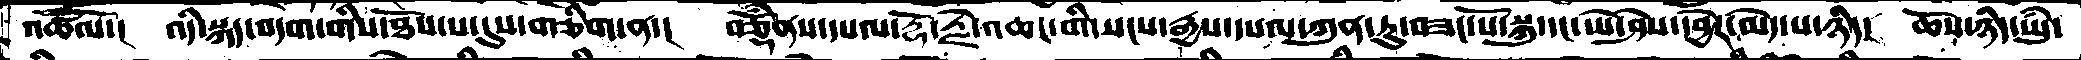འཚལོ་།  འདི་སྐད་བདག་གིས་ཐོས་པ་དུས་གཅིག་ན་།   བཅྡོཾནས་དཔལ་རྡོ་རྗེ་འཆང་གི་སངས་རྒྱས་དཔལ་ཀུན་ཏུ་བཟང་པོ་སྐུ་དང་ཡེ་ཤེས་དབྱེར་མེད་པ་ཉིད་།   ཆོས་ཉིད་ཡུཾ་
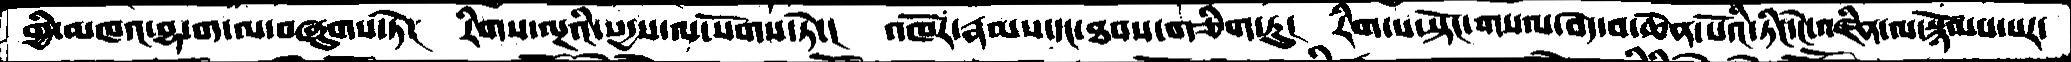གྱི་མཁའ་བྷ་ག་ལ་བཞུགས་ཏེ།  རིགས་ལྔའི་སདྱས་ལ་སོགས་ཏེ་།  འཁོར་རྣམས་དང་ཐབས་གཅིག་ཏུ།  རིག་པ་སྟོང་གསལ་བདེ་བ་ཆེན་པོའི་ཏིང་ངེ་འཛིན་ལ་སྙོམས་པར་
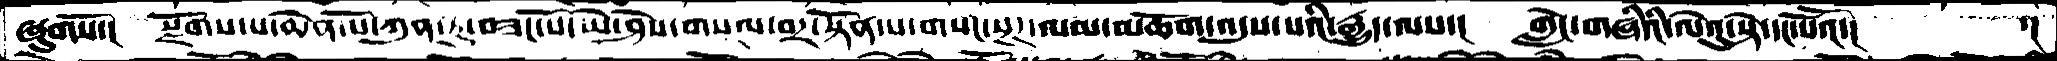ཞུགས་སོ་།  སྫོགས་པ་ཆེན་པོ་ཀུན་ཏུ་བཟང་པོ་ཡེ་ཤེས་གསལ་བར་སྟོན་པ་གསང་སྔཌ་ལམ་མཆོག་འདུས་པའི་རྒྱུད་ལས་།  གླེང་བཞིའི་ལེའུ་སྟེ་དང་པོའོ་།        ་།
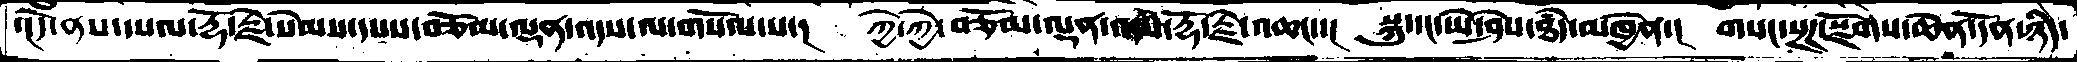་།དེ་ནས་དཔལ་རྡོ་རྗེ་སེམས་དཔས་བཅོམ་ལྡན་འདས་ལ་གསོལ་པ་།  ཀྱེ་ཀྱེ་བཅོམ་ལྡན་འདས་རྡོ་རྗེ་འཆང་་།  སྐུ་དང་ཡེ་ཤེས་ཐཾད་མཁྱེན་།  གསང་སྔཌ་སྫོགས་ཆེན་དོན་ཉིད་
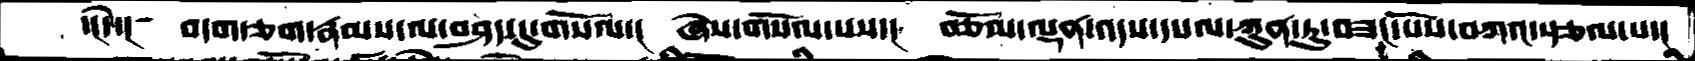་།དེ་།  བདག་ཅག་རྣམས་ལ་བཤད་དུ་གསོལ་།  ཞེས་གསོལ་པས་།  བཅོམ་ལྡན་འདས་དཔལ་ཀུན་ཏུ་བཟང་པོས་བཀའ་སྩལ་པ་།
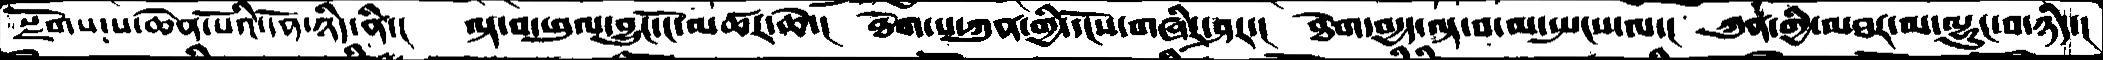སྫོགས་པ་ཆེན་པོའི་དོན་ཉིད་ནི་།  ལྟ་བ་ཕུལ་བྱུང་ངོ་མཚར་ཆེ་།  ཐེག་པ་ཀུན་གྱི་དངོས་གཞིར་ཤར་།  ཐེག་བདྱད་ལྟ་བ་མ་སྤངས་ལ་།  ཀུན་གྱི་མཐར་མ་ལྷུང་བ་ཉིད་།
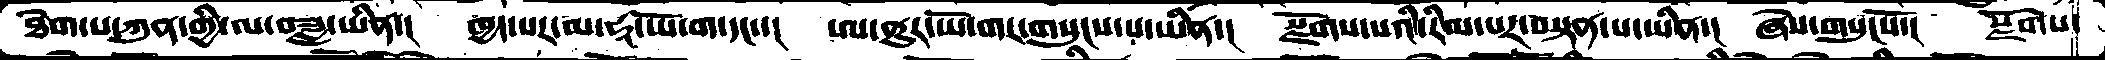ཐེག་པ་ཀུན་གྱི་ལ་བཟླ་་ཡིན་།  ཁྱད་པར་མ་ཧཱ་་ཡོ་ག་དང་་།  ཨ་ནུར་ཡོ་གར་གསུངས་པ་ཡིན་།  སྫོགས་པའི་རིམ་པར་བསྟན་པ་ཡིན་།  ཞེས་གསུངསོ་།  སྫོགས་
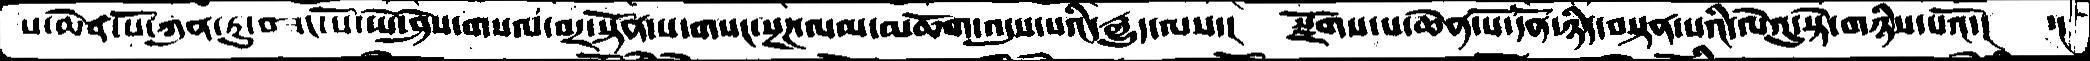ས་ཆེན་པོ་ཀུན་ཏུ་བཟང་པོ་ཡེ་ཤེས་གསལ་བར་སྟོན་པ་གསང་སྔཌ་ལམ་མཆོག་འདུས་པའི་རྒྱུད་ལས་།  སྫོགས་པ་ཆེན་པོ་དོན་ཉིད་བསྟན་པའི་ལེའུ་སྟེ་གཉིས་པའོ་།   ་།
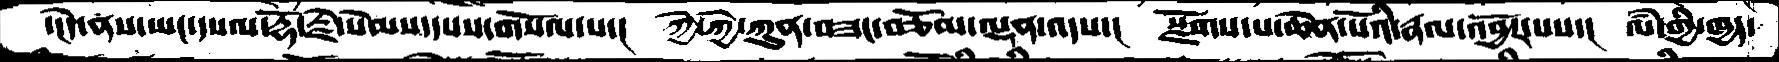་།་དེ་ནས་ཡང་དཔལ་རྡོ་རྗེ་སེམས་དསས་གསོལ་པ་།  ཀྱེ་ཀྱེ་ཀུན་བཟང་བཅོམ་ལྡན་འདས་།  སྫོགས་པ་ཆེན་པོའི་རྣལ་འབྱོར་པས་།  ལཾ་གྱི་ཁྱད་
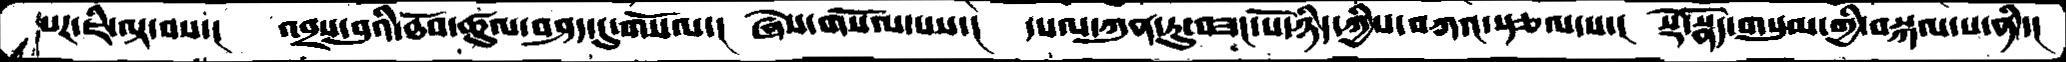པར་ཇི་ལྟ་བས་།  འབྲས་བུའི་ཐོབ་ཚུལ་བཤད་དུ་གསོལ་།  ཞེས་གསོལ་པས་།  དཔལ་ཀུན་ཏུ་བཟང་པོ་ཉིད་ཀྱིས་བཀའ་སྩལ་པ་།  སྡེ་སྣོད་གསུམ་གྱི་བསྐལ་པ་ནི་།
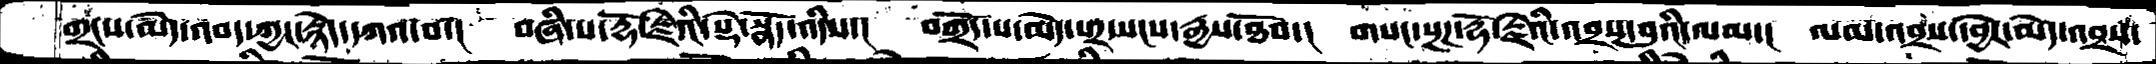གྲངས་མེད་འབད་ཀྱང་རྙེད་དཀའ་བ་།  བཞི་པ་རྡོ་རྗེའི་སྡེ་སྣོད་འདིས་།  བགྲོད་པ་མེད་པར་སངས་རྒྱས་ཐོབ་།  གསང་སྔཌ་རྡོ་རྗེའི་འབྲས་བུའི་ལམ་།  ལམ་འབྲས་དབྱེར་མེད་འབྲས་
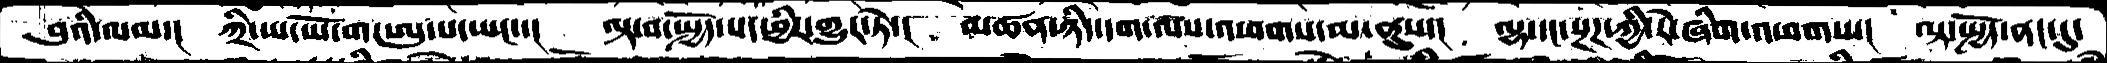བུའི་ལམ་།  ཀྲི་ཡ་ཡོ་ག་ཨུ་པ་ཡང་་།   ལྟ་བ་སྤྱོད་པ་ཕྱིར་གྱུར་ཏེ་།   མཚན་ཉིད་དག་ལས་འཕགས་མ་ནུས་།   ལྷ་དང་སྔཌ་ཀྱི་རེ་ཞིག་འཕགས་།  ལྟ་སྤྱོད་ནང་དུ་
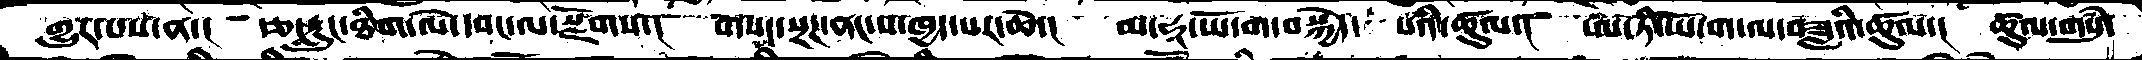གྱུར་པས་ན་།   རྩ་རླུང་ཐིག་ལེ་དབང་ལ་སྫོགས་།   གསང་སྔཌ་ནང་ས་ཁྱད་པར་ཆེ་།   མ་ཧ་ཡོ་ག་བསྐྱེད་  པའི་ཚུལ་།   ཨ་ཏི་ཡོ་ག་ལ་བཟླའི་ཚུལ་།   ཚུལ་གསུཾ་
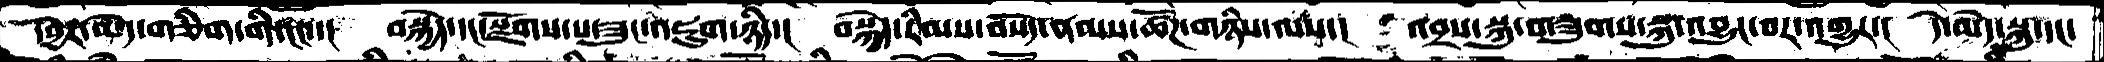དབྱེར་མེད་གཅིག་གི་ངང་་།    བསྐྱེད་དང་སྫོགས་པ་ཟུང་འཇུག་ཉིད་།   བསྐྱེད་རིམས་བསོད་ནམས་ཚོཌ་གཉིས་ལས་།   འབྲས་སྐུ་གཟུགས་སྐུ་འབྱུང་བར་འགྱུར་།  དེ་མེད་སྐུ་དང་
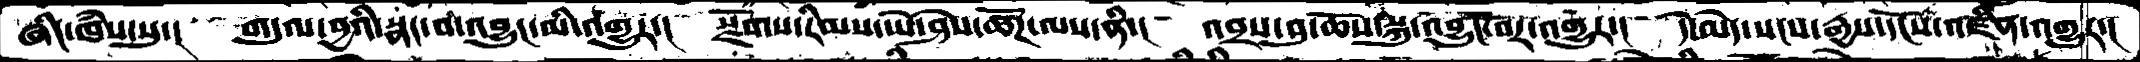ཞིང་ཁཾས་སུ་།   གདུལ་བྱའི་སྣང་བ་འབྱུང་མི་འགྱུར་།   སྫོགས་རིམས་ཡེ་ཤེས་ཚོཌ་ལས་ནི་།   འབྲས་བུ་ཆོས་སྐུ་འབྱུང་བར་འགྱུར་།   དེ་མེད་སངས་རྒྱས་དངོས་འཛིན་འགྱུར་།
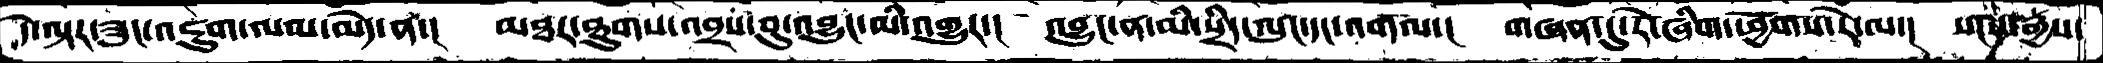དེ་ལྟར་ཟུང་འཇུག་ལམ་མེད་ན་།   མཐར་ཐུགས་འབྲས་བུ་འབྱུང་མི་འགྱུར་།   འབྱུང་ན་མི་སྲིད་ལུང་དང་འགལ་།   གཞན་དུ་རེ་ཞིག་ཕྱོགས་རེ་ལ་།   སངས་རྒྱས་
